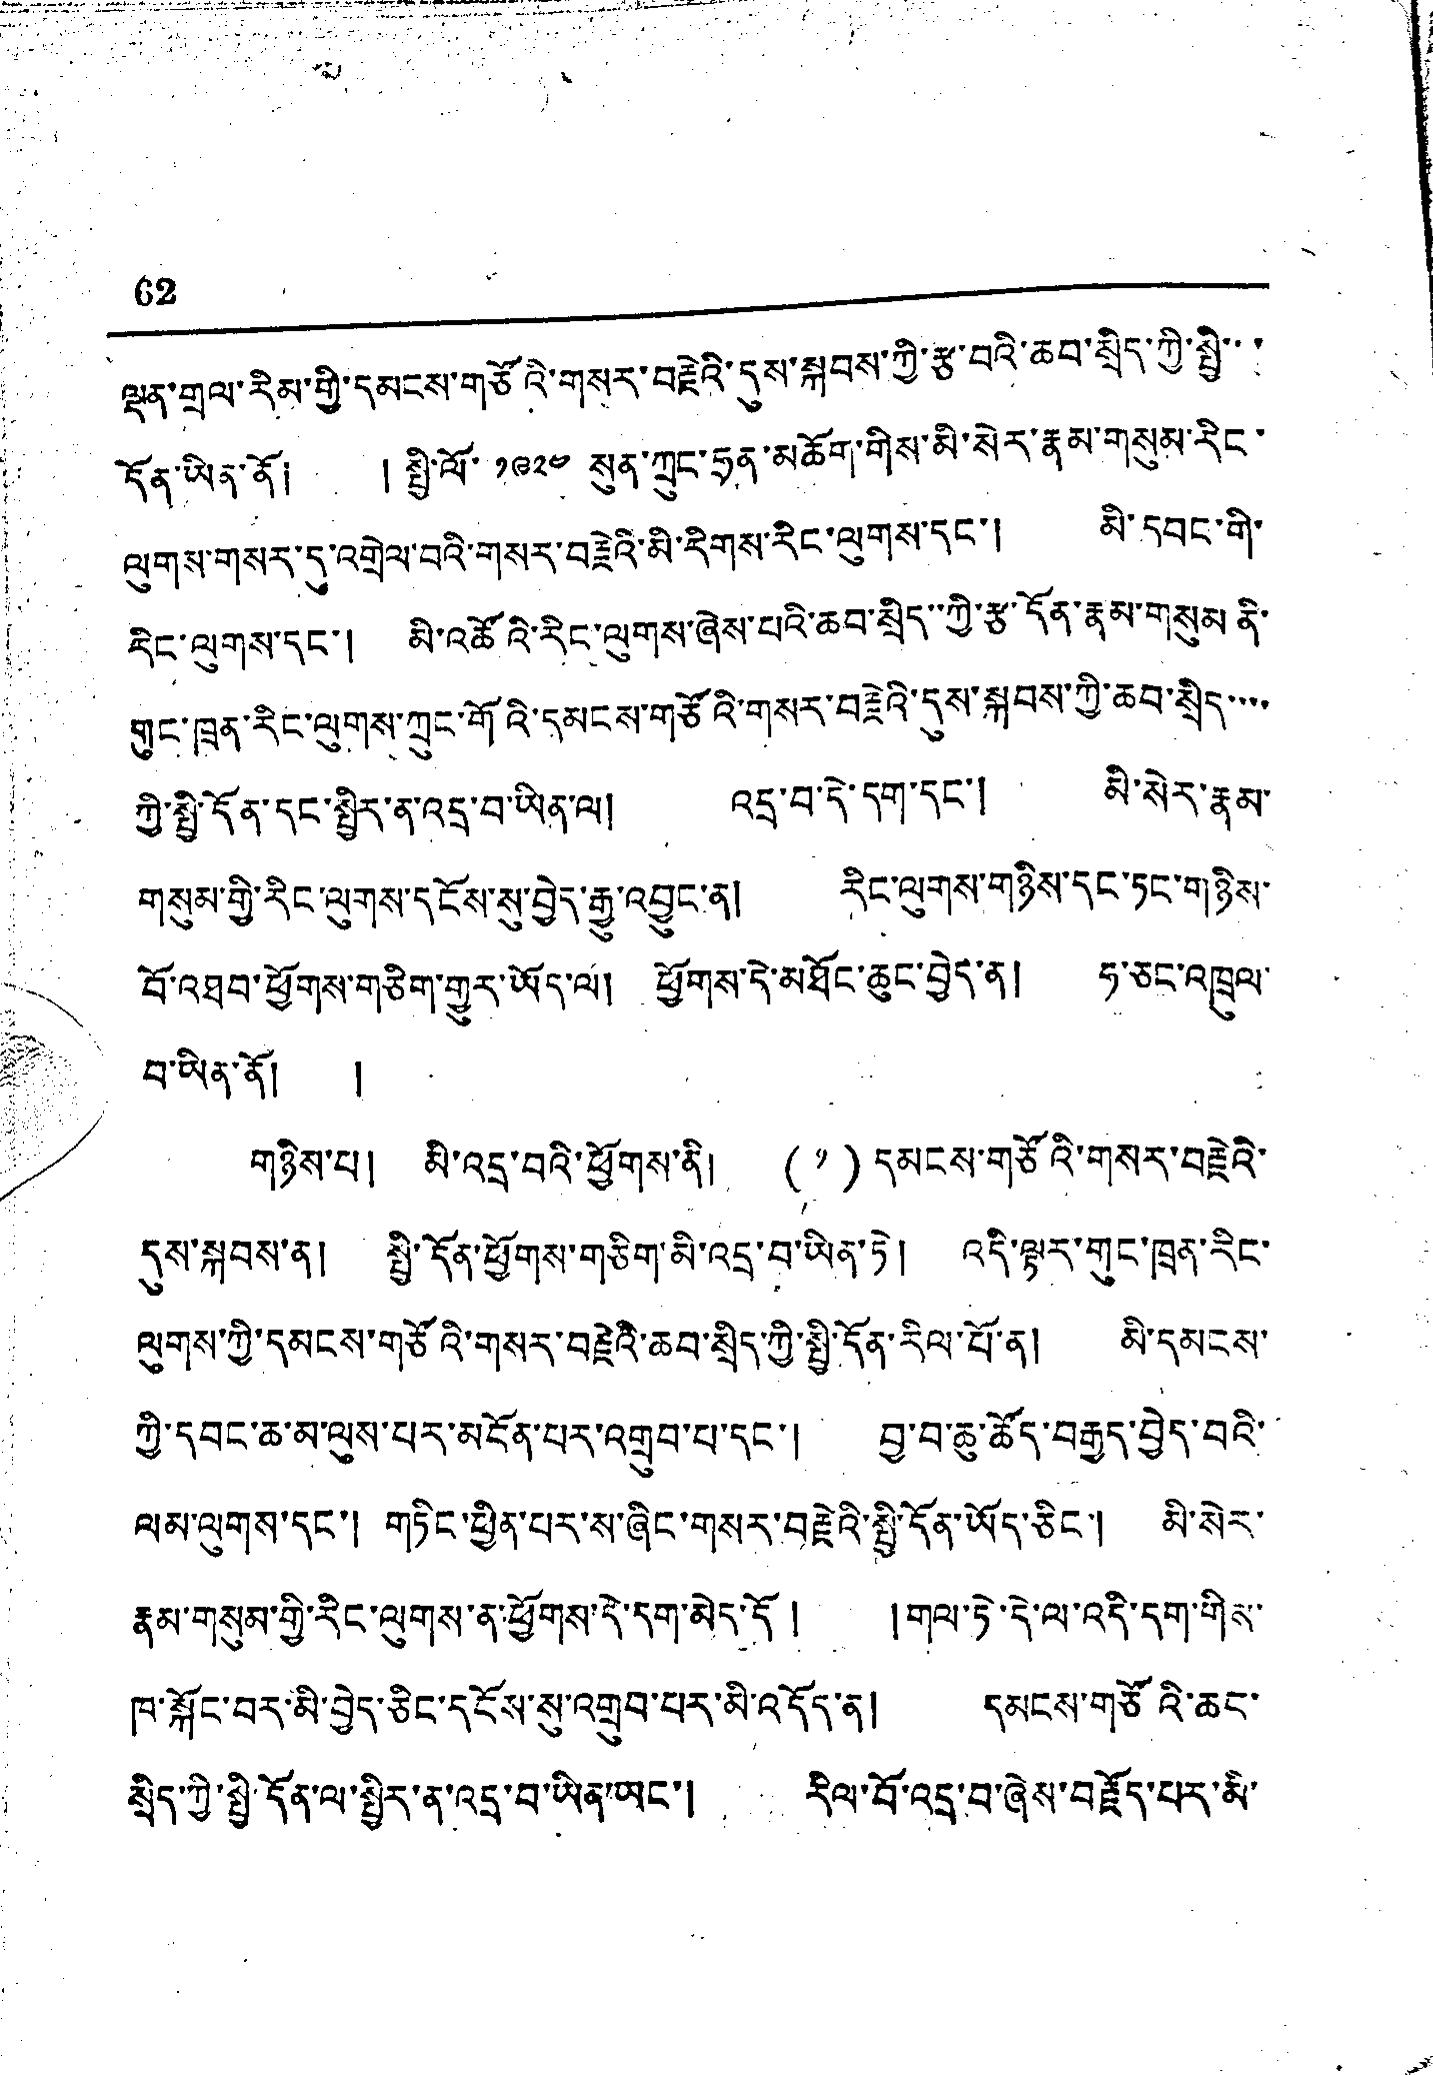62
ལྡན་གྲལ་རིམ་གྱི་དམངས་གཙོའི་གསར་བརྗེའི་དུས་སྐབས་ཀྱི་རྩ་བའི་ཆབ་སྲིད་ཀྱི་སྤྱི་་་
དོན་ཡིན་ནོ། ། སྤྱི་ལོ་ ༡༩༢༤ སུན་ཀྲུང་ཧྲན་མཆོག་གིས་མི་སེར་རྣམ་གསུམ་རིང་
ལུགས་གསར་དུ་འགྲེལ་བའི་གསར་བརྗེའི་མི་རིགས་རིང་ལུགས་དང་། མི་དབང་གི་
རིང་ལུགས་དང་། མི་འཚོའི་རིང་ལུགས་ཞེས་པའི་ཆབ་སྲིད་་ཀྱི་རྩ་དོན་རྣམ་གསུམ ནི་
གུང་ཁྲན་རིང་ལུགས་ཀྲུང་གོའི་དམངས་གཙོའི་གསར་བརྗེའི་དུས་སྐབས་ཀྱི་ཆབ་སྲིད་་་་
ཀྱི་སྤྱི་དོན་དང་སྤྱིར་ན་འདྲ་བ་ཡིན་ལ། འདྲ་བ་དེ་དག་དང་། མི་སེར་རྣམ་
གསུམ་གྱི་རིང་ལུགས་དངོས་སུ་བྱེད་རྒྱུ་འབྱུང་ན། རིང་ལུགས་གཉིས་དང་ཏང་གཉིས་
བོ་འཐབ་ཕྱོགས་གཅིག་གྱུར་ཡོད་ལ། ཕྱོགས་དེ་མཐོང་ཆུང་བྱེད་ན། ཧ་ཅང་འཁྲུལ་
བ་ཡིན་ནོ། །
གཉིས་པ། མི་འདྲ་བའི་ཕྱོགས་ནི། (༡) དམངས་གཙོའི་གསར་བརྗེའི་
དུས་སྐབས་ན། སྤྱི་དོན་ཕྱོགས་གཅིག་མི་འདྲ་བ་ཡིན་ཏེ། འདི་ལྟར་གུང་ཁྲན་རིང་
ལུགས་ཀྱི་དམངས་གཙོའི་གསར་བརྗེའི་ཆབ་སྲིད་ཀྱི་སྤྱི་དོན་རིལ་པོ་ན། མི་དམངས་
ཀྱི་དབང་ཆ་མ་ལུས་པར་མངོན་པར་འགྲུབ་པ་དང་། བྱས་བ་ཆུ་ཚོད་བརྒྱུད་བྱེད་བའི་
ལམ་ལུགས་དང་། གཏིང་ཕྱིན་པར་ས་ཞིང་གསར་བརྗེའི་སྤྱི་དོན་ཡོད་ཅིང་། མི་སེར
རྣམ་གསུམ་གྱི་རིང་ལུགས་ན་ཕྱོགས་དེ་དག་མེད་དོ ། །གལ་ཏེ་དེ་ལ་འདི་དག་གིས་
ཁ་སྐྱོང་བར་མི་བྱེད་ཅིང་དངོས་སུ་འགྲུབ་པར་མི་འདོད་ན། དམངས་གཙོའི་ཆང་
སྲིད་ཀྱི་སྤྱི་དོན་ལ་སྤྱིར་ན་འདྲ་བ་ཡིན་ཡང་། རིལ་བོ་འདྲ་བ་ཞེས་བརྗོད་པར་མི་
